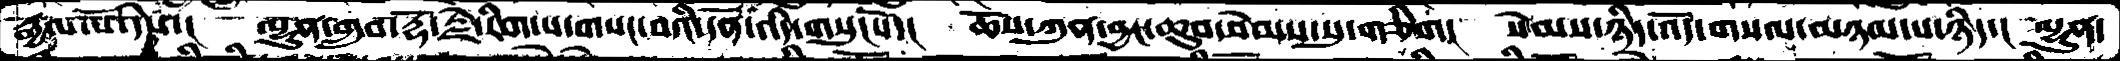རྒྱལ་པོ་དེས་།  ལྷུན་གྲུབ་རྡོ་རྗེ་རིག་པ་གསང་བའི་དོན་འདི་གསུངསོ་།  ཆོས་ཀུན་བྱང་ཆུབ་སེམས་སུ་གཅིག།  སེམས་ཉིད་འོད་གསལ་མཉམ་པ་ཉིད་།  ལྷུན་
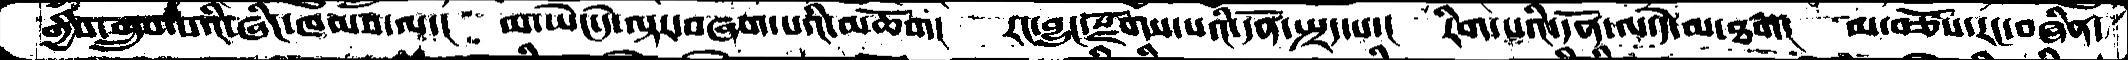གྱིས་གྲུབ་པའི་ཞིང་ཁམས་ལ་། མ་ཡེང་དེ་ལྟར་བཞག་པའི་མཆོག། རང་བྱུང་སྫོགས་པའི་དོན་སྤྲད་པ་། རིག་པའི་དོན་ལ་དེ་མ་ཐག། མ་བཅོས་རང་བཞིན་
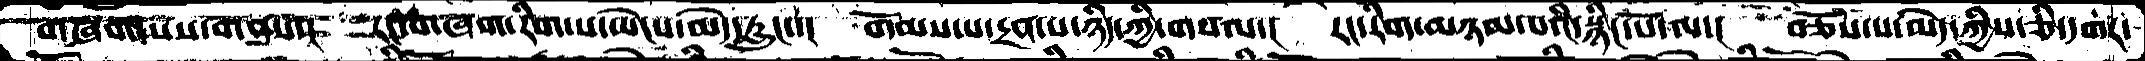གཞག་པས་གནས་།  རང་ས་ཞག་རིག་པ་ཡེངས་མེད་རླུང་་།  གོམས་པ་དྲན་པ་ཉིད་ཀྱི་གསལ་།  རང་རིག་མཉམ་པའི་སྙིང་པོ་ལ་།  བཅོས་པ་མེད་ཀྱིས་ཅི་དགར་
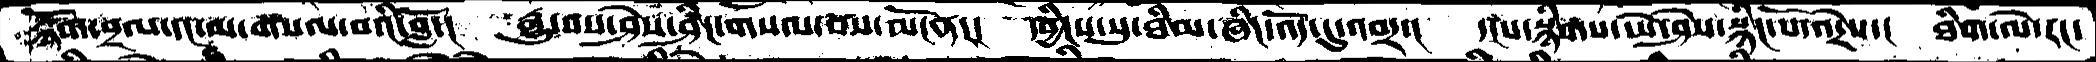རྙོག་བྲལ་དང་མ་གསལ་བའི་བློ་།  རྒྱུ་བས་ཤེས་ཤིང་གསལ་བས་མངོན་།  དབྱིངས་སུ་ཐིམ་ཞིང་འདོ་དུ་འབར་།  ་།ས་སྙིགས་ཡེ་ཤེས་སྙིང་པོའདྲེས་།  ཐིག་ལེ་རང་
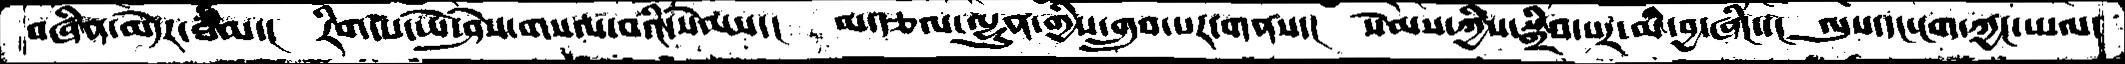བཞིན་མདེར་ཐིམ་།  རིག་པ་ཡེ་ཤེས་གསལ་བའི་སེམས་།  མ་རྩལ་ལྷུན་གྱིས་གྲུབ་པར་གནས་།  སེམས་ཀྱིས་སྒྲིབ་པར་མི་བྱ་ཞིང་་།  ལུས་དང་ངག་་ཀྱང་ཡལ་
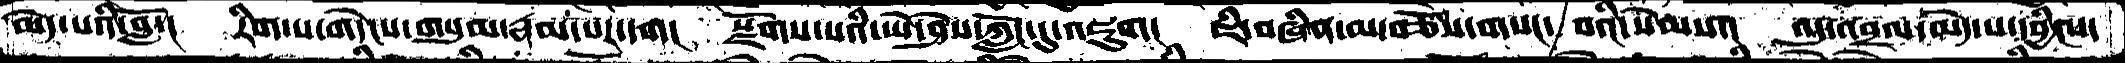མེད་པའི་བློ་  རིག་པ་གདེངས་གསུམ་རྣམ་པར་དག།  སྫོགས་པའི་ཡེ་ཤེས་ཀློང་དུ་འཇུག།  ཇི་བཞིན་མ་བཅོས་གསང་བའི་སེམས་།  འདུ་འབྲལ་མེད་པ་དབྱིངས་
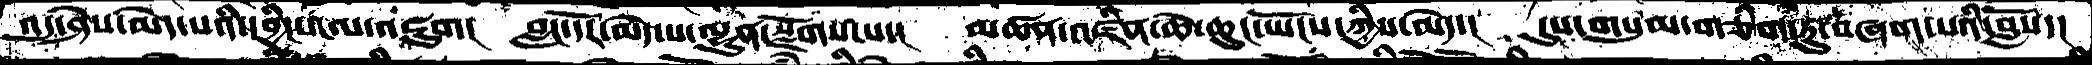འདུ་ཤེས་མེད་པའི་དབྱིངས་ལ་འཇུག།  བླང་དོར་མེད་པ་ལྷུན་སྫོགས་པ་།  མཚན་འཛིན་ཆེ་ཆུང་ཡོངས་ཀྱིས་མེད་།  དུས་གསུམ་གཅིག་ཏུ་བཞག་པའི་བློས་།
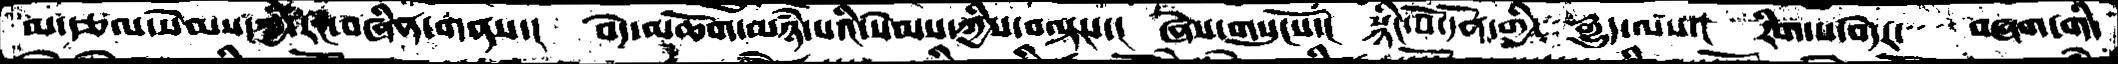མ་རྩལ་སེམས་ཀྱི་རང་བཞིན་གནས་།  བདེ་མཆོག་མཉཾ་པའི་སེམས་ཀྱིས་བལྟས་།  ཞེས་གསུངསོ་།  སྙིང་པོ་དོན་གྱི་རྒྱུད་ལས་།  རིག་པ་བདེར་  བཞག་གི་
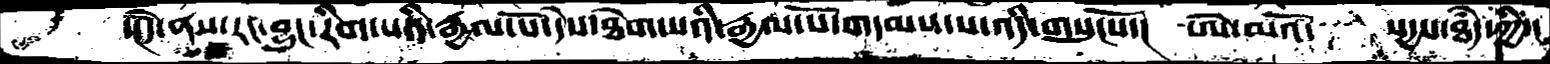་།དེེ་ནས་རང་བྱུང་རིག་པའི་རྒྱལ་པོ་དསེ་ཐེག་པའི་རྒྱལ་པོ་གདམས་པ་འདི་གསུངསོ་།  ཨེ་མའོ་  སདྱས་ཐཾད་ཀྱི་།
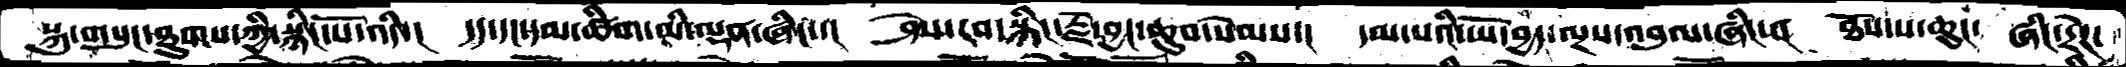སྐུ་གསུང་ཐུགས་ཀྱི་སྙིང་པོ་འདི་།  དད་དང་དམ་ཚིག་མི་ལྡན་ཞིང་་།  ཤེས་རབ་སྙིང་རྗེ་བྱང་ཆུབ་སེམས་།  དམ་པའི་ཡོ་བྱད་ལྔས་འབུལ་ཞིངས།  ཐོས་པ་ཆུང་  ཞིང་དྲེཌ་
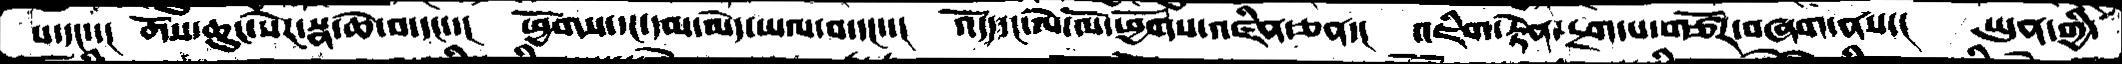ས་དང་་།  གོས་ཆུང་སེར་སྣ་ཆེ་བ་དང་་།  ཕྱོགས་དང་དམ་མེད་ཡལ་བ་དང་་།  འདོད་དང་ལེ་ལོ་ཕྱོགས་འཛིན་ཅན་།  འཇིག་རྟེན་དྲག་པ་གཙོར་བཞག་ནས་།  ཡུན་གྱི་
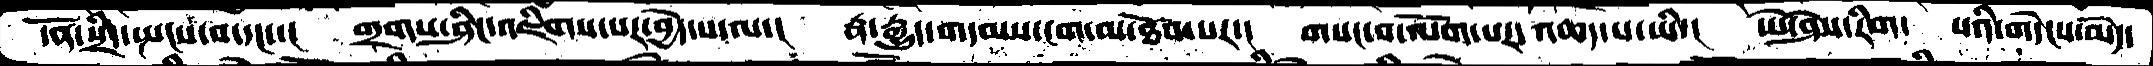དོན་སྲིད་སྤངས་པ་དང་་།  གྲགས་ཤིང་འཇིགས་པར་བྱེད་པ་ལ་།  རྣ་རྒྱུད་གདམས་ངག་མ་ཐོབ་པར་།  གསང་བ་ལོག་པར་འཆད་པ་ཡི་།  ཡེ་ཤེས་རིག་  པའི་གདེངས་མེད་
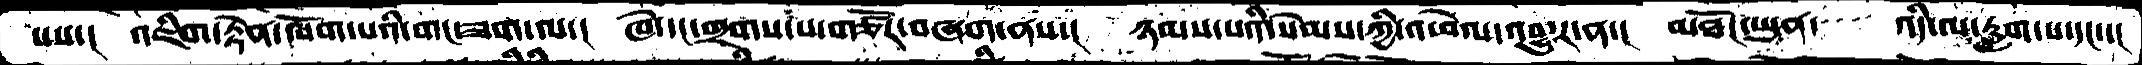པས་།  འཇིག་རྟེན་ལོག་པའི་གང་ཟག་ལ་།  ཁེ་དང་གྲགས་པ་གཙོར་བཞག་ནས་།  ཉམས་པའི་སེམས་ཀྱི་འཕེལ་འགྱུར་ན་།  མཐོང་ཡུན་   འདི་ལ་རླག་པ་དང་་།
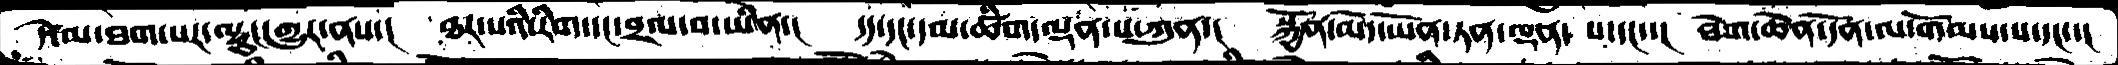དེ་མ་ཐག་པར་ལྷུང་གྱུར་ནས་།  ཐར་པའི་རིག་དང་བྲལ་བ་ཡིན་།  དད་དང་དམ་ཚིག་ལྡན་པ་ཀུན་།  སྐྱོན་མེད་ཡོན་ཏན་ལྡན་ པ་དང་་།  ཐེག་ཆེན་དོན་ལ་གོམས་པ་དང་་།།
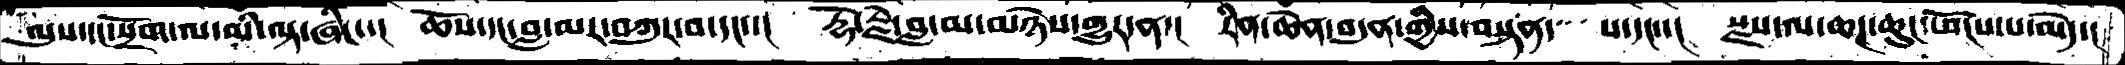ལུས་དང་སྲོག་ལ་མི་ལྟ་ཞིང་་།  ཆོས་དང་བླ་མར་བཀུར་བ་དང་་།  རྡོ་རྗེ་བླ་མ་མཉེས་གྱུར་ན་།  རིན་ཆེན་བདུན་གྱིས་བསྟན་  པ་དང་་།  སྫས་ལ་ཆཌ་ཆུང་ཕོངས་པ་མེད་།
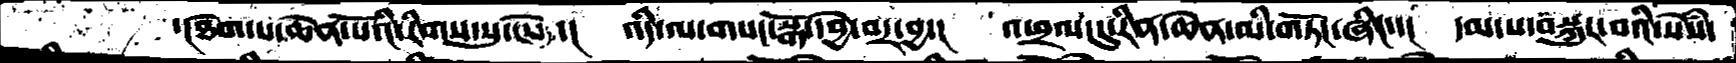་།ཐེག་པ་ཆེན་པོའི་རིགས་སུ་ངེས་།  འདི་ལ་གསང་སྒོ་དབྱེ་བར་བྱ་།  འཕྲལ་དུ་རིན་ཆེན་མི་གཏོང་ཞིང་་།  དམ་པ་བསྐུར་བའི་སེཾས་
